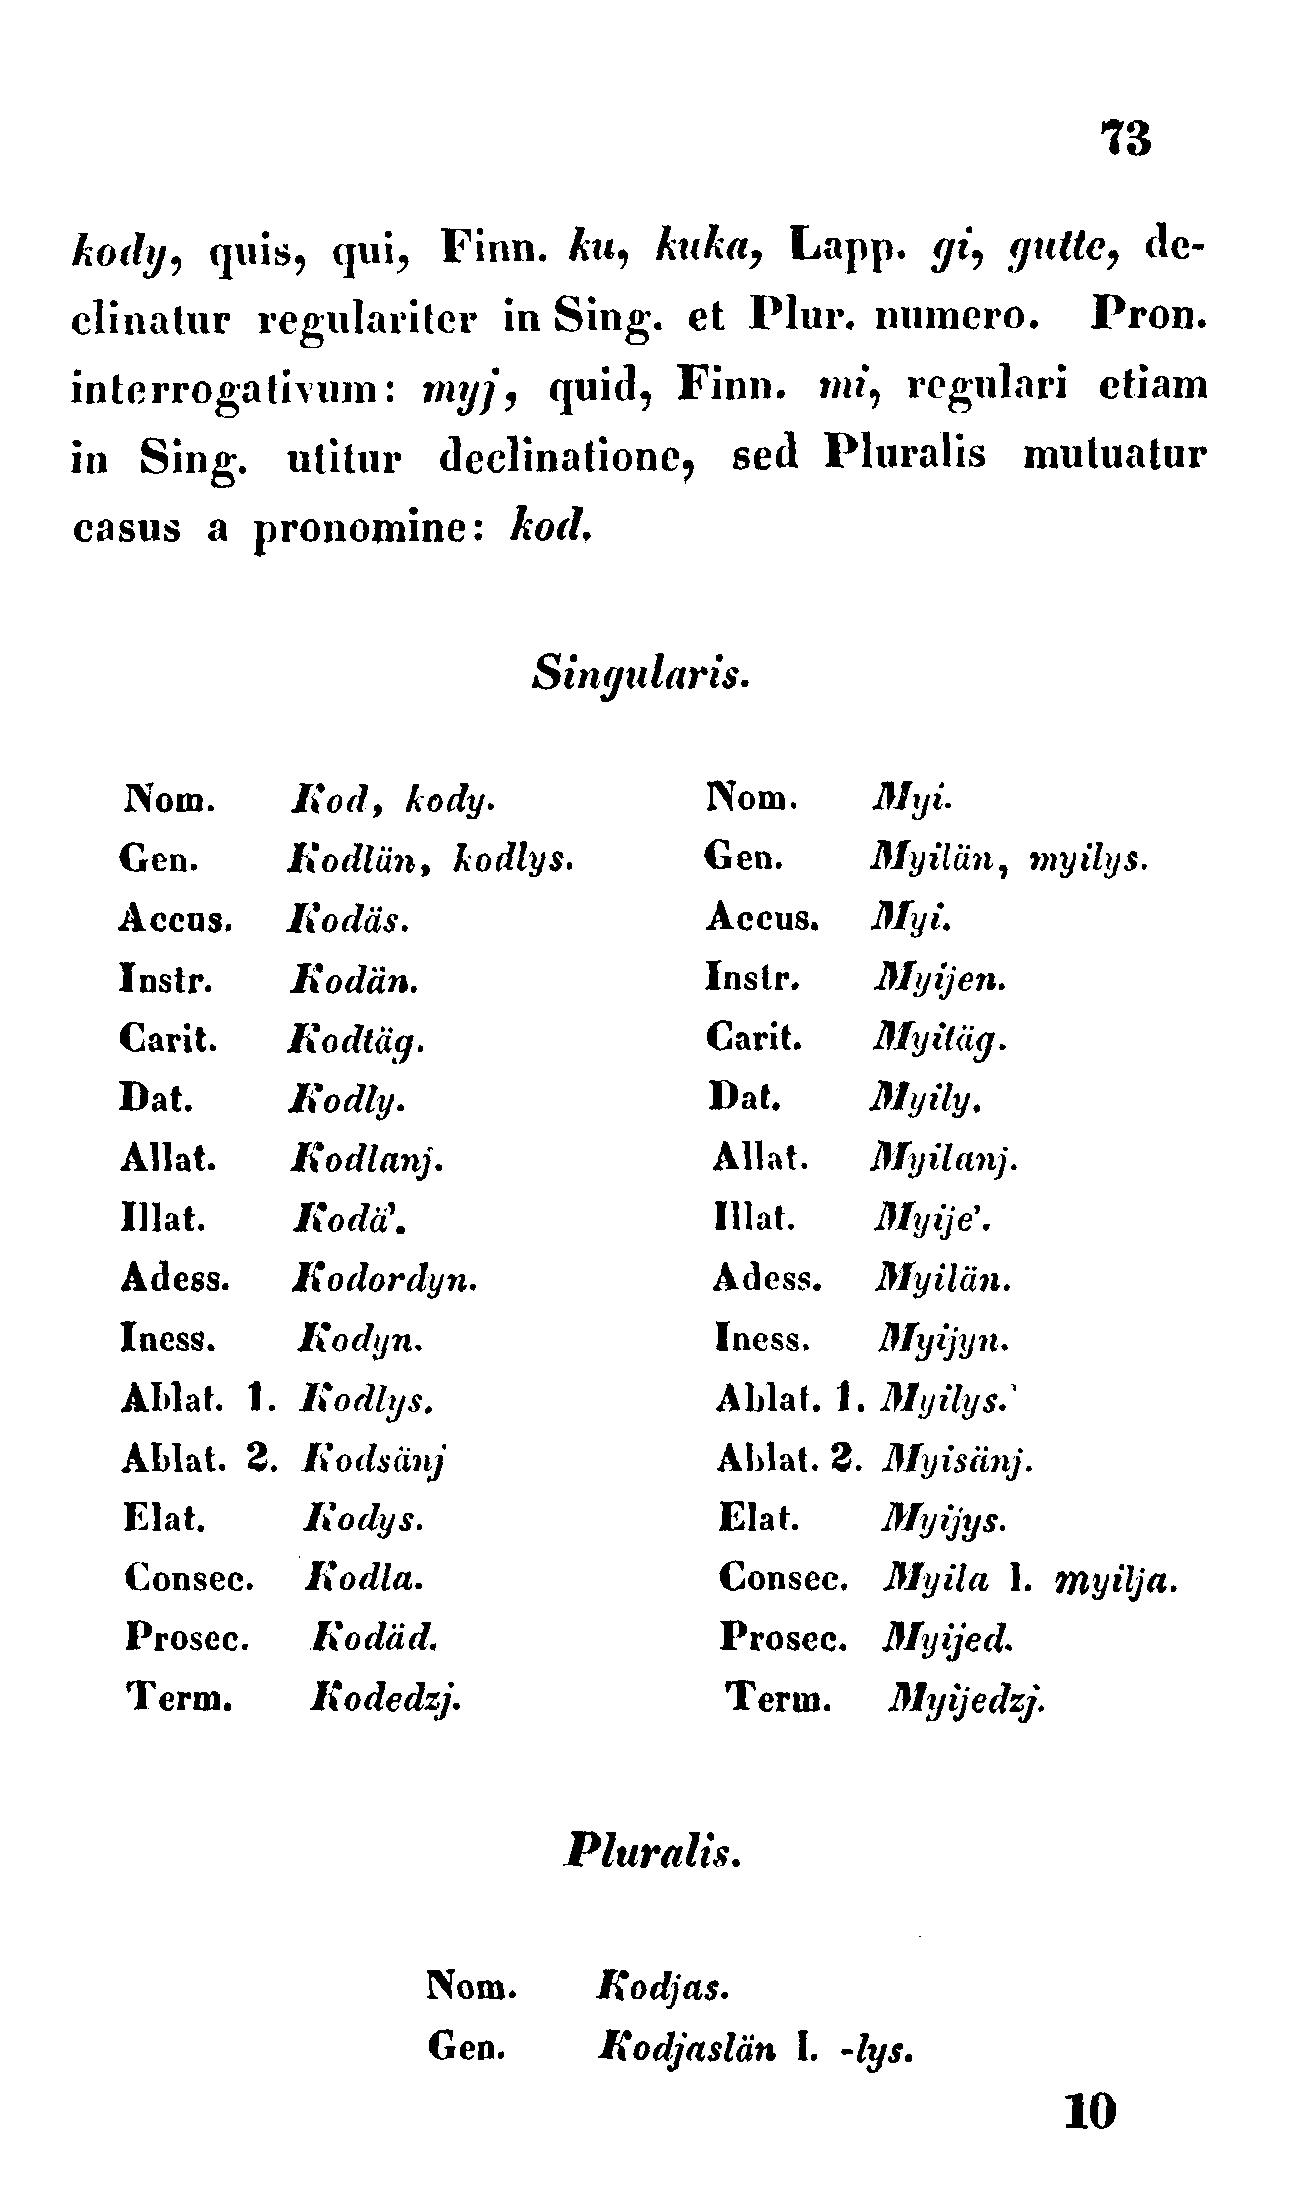73
kody, quis, qui, Finn. ku, kuka, Lapp. gi, gutte, de-
clinatur regulariter in Sing. et Plur. numero. Pron.
interrogativum: myj, quid, Finn. mi, regulari etiam
in Sing. utitur declinatione, sed Pluralis mutuatur
casus a pronomine: kod.
Singularis.
Nom.
Kod, kody.
Nom.
Myi.
Gen.
Kodlän, kodlys.
Gen.
Myilän, myilys.
Accus.
Kodäs.
Accus.
Myi.
Instr.
Kodän.
Instr.
Myijen.
Carit.
Kodtäg.
Carit.
Myitäg.
Dat.
Kodly.
Dat.
Myily.
Allat.
Kodlanj.
Allat.
Myilanj.
Illat.
Kodä'.
Illat.
Myije'.
Adess.
Kodordyn.
Adess.
Myilän.
Iness.
Kodyn.
Iness.
Myijyn.
Ablat. 1.
Kodlys.
Ablat. 1.
Myilys.
Ablat. 2
Kodsänj
Ablat. 2.
Myisänj.
Elat. Kodys.
Elat.
Myijys.
Consec.
Kodla.
Consec.
Myila l. myilja.
Prosec.
Kodäd.
Prosec.
Myijed.
Term. Kodedzj.
Term.
Myijedzj.
Pluralis.
Nom.
Kodjas.
Gen.
Kodjaslän l. -lys.
